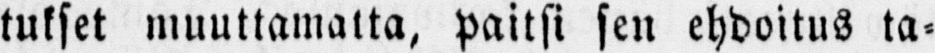tukset muuttamatta, paitsi sen ehdoitus ta-
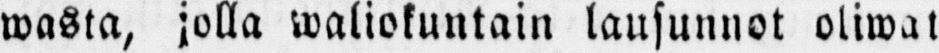wasta, jolla waliokuntain lausunnot oliwat
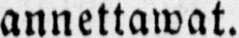annettawat.
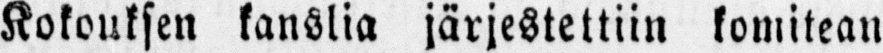Kokouksen kanslia järjestettiin komitean
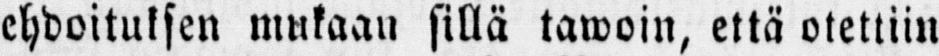ehdoituksen mukaan sillä tawoin, että otettiin
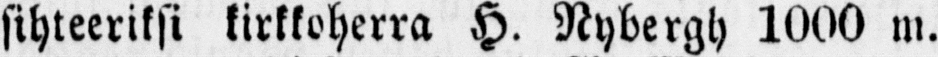sihteeriksi kirkkoherra H. Nybergh 1000 m.
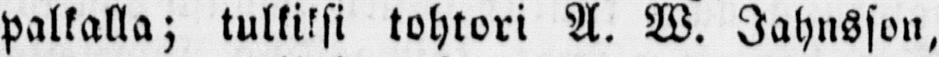palkalla; tulkitsi tohtori A. W. Jahnsson,
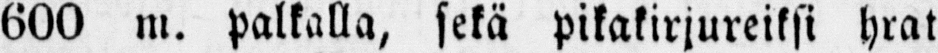600 m. palkalla, sekä pikakirjureiksi hrat
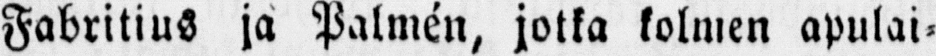Fabritius ja Palmén, jotka kolmen apulai-
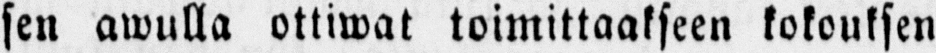sen arvalla ottiwat toimittaakseen kokouksen
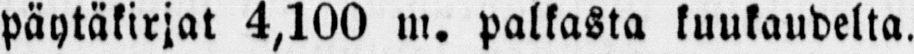pöytäkirjat 4,100 m. palkasta kuukaudelta.
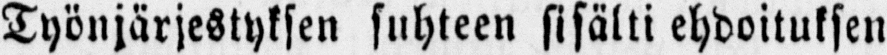Työnjärjestyksen suhteen sisälti ehdoituksen
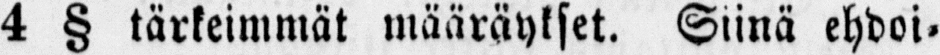4 § tärkeimmät määräykset. Siinä ehdoi-
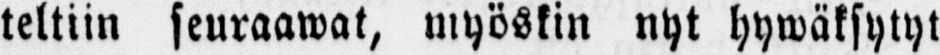tettiin seuraawat, myöskin nyt hywäksytyt
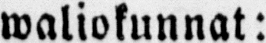waliokunnat:
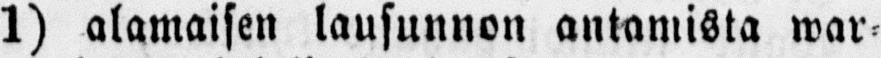1) alamaisen lausunnon antamista war-
